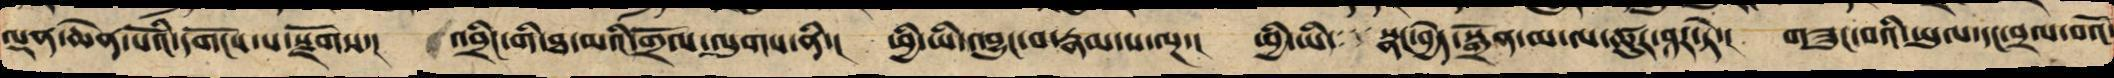ལྡན་ཆེན་པོའི་དགོངས་པ་སྫོགས་། འབྲིང་གི་ཐ་མའི་གྲོལ་ལུགས་ནི་། ཕྱི་ཡི་འབྱུང་བ་རྣམ་པ་ལྔ་། ཕྱི་ཡི་་་་སྣང་བྱེད་སྒྲོན་མ་ལ་ཚུར་ཤར་ཏེ་། གཟུང་བའི་ཡུལ་དང་བྲལ་བའོ་།
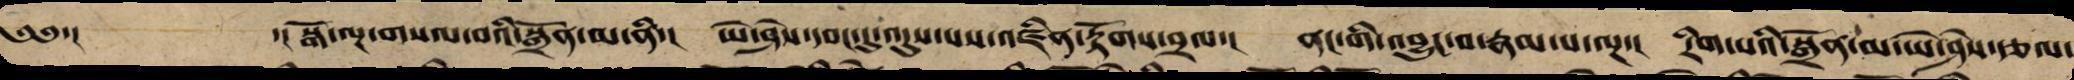༄༅་། ་།སྒོ་ལྔ་གསལ་བའི་སྒྲོན་མ་ནི་། ཡེ་ཤེས་དབང་དུ་འདུས་པས་འཛིན་རྟོགས་བྲལ་། ནང་གི་འབྱུང་བ་རྣམ་པ་ལྔ་། རིག་པའི་སྒྲོན་མ་ཡེ་ཤེས་རྩལ་
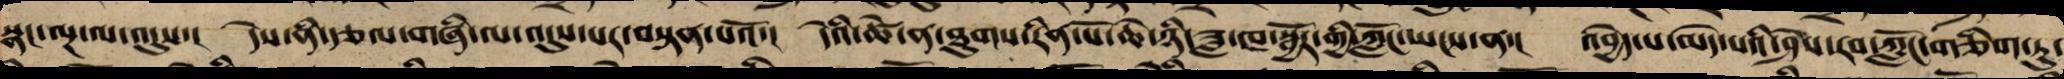སྣང་ལྔ་ལ་འདུས་། དེས་ནི་རྩལ་གཞི་ལ་འདུས་པར་བསྟན་པའོ་། དེའི་ཚེ་ཐུགས་རིན་པོ་ཆེ་ཉི་ཟླ་ཁ་སྦྱོར་གྱི་ཀློང་ཡངས་ན་། འབྱེད་པ་མེད་པའི་ཤེས་རབ་ཀློང་གཅིག་ཏུ་
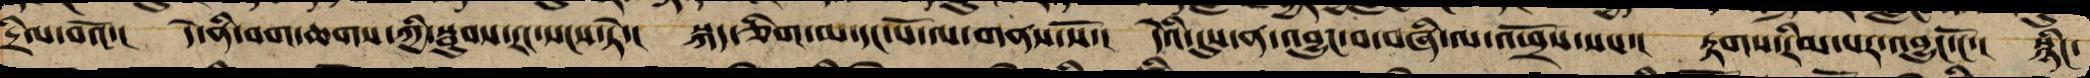དྲིལ་བའོ་། དེ་ནི་བག་ཆགས་ཀྱི་སྦུབས་རང་སངས་ཏེ་། སྐད་ཅིག་མ་དང་པོ་ལ་གནས་སོ་། དེའི་དུས་ན་འབྱུང་བ་བཞི་འཕྲོས་པས་། རྟགས་རིམ་པར་འབྱུང་ངོ་། སྙིང་
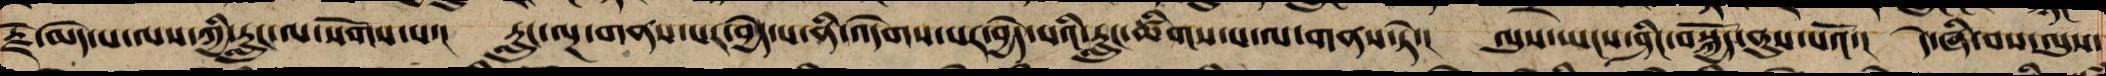རྗེ་མེད་པ་ལས་ཀྱི་རླུང་ལ་སོགས་པ་། རླུང་ལྔ་གནས་པར་བྱེད་པ་ནི་འདེགས་པར་བྱེད་པའི་རླུང་ཚིགས་པ་ལ་གནས་ཏེ་། ལུས་ཡངས་ཤིང་བསྐྱོད་ནུས་པའོ་། དེ་ཞི་བས་ལུས་
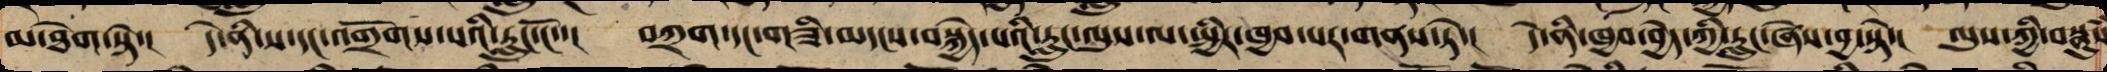མི་ཐེག་སྟེ་། དེ་ནི་ས་དང་འགྲོགས་པའི་རླུང་ངོ་་། བཀྲག་དང་གཟི་མདངས་བསྐྱེད་པའི་རླུང་ལུས་ལ་སྤྱིར་ཁྱབ་པར་གནས་ཏེ་། དེ་ནི་ཁྱབ་བྱེད་ཀྱི་རླུང་ཞེས་བྱ་སྟེ་། ལུས་ཀྱི་བསྣུཾས
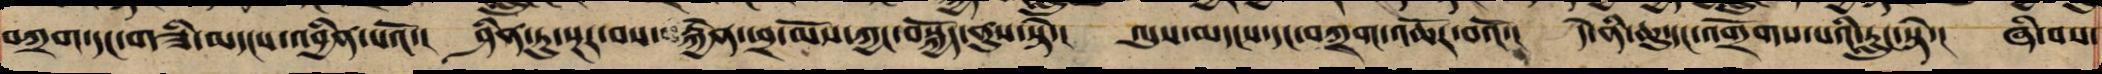བཀྲག་དང་གཟི་མདངས་འབྱིན་པའོ་། ཤིན་ཏུ་སྔར་བས་རྐྱེན་ཕྲ་མོས་ཀྱང་བསྐྱོད་ནུས་སྟེ་། ལུས་མདངས་དང་བཀྲག་འཆོར་བའོ་། དེ་ནི་ཆུ་དང་འགྲོགས་པའི་རླུང་སྟེ་། ཞི་བས་
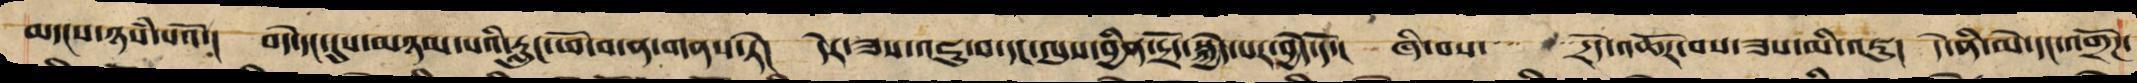མདངས་ཉཾས་པའོ་། བདེ་དང་དུས་མཉམ་པའི་རླུང་ཕོ་བ་ན་གནས་ཏེ་། དེར་ཟས་འཇུ་བ་དང་ལུས་བྱིན་དྲོད་སྐྱེ་བར་བྱེད་དོ་། ཞི་བས་་་་་ ་་དྲོད་འཆོར་བས་ཟས་མི་འཇུ། དེ་ནི་མེ་དང་འགྲོཌ་
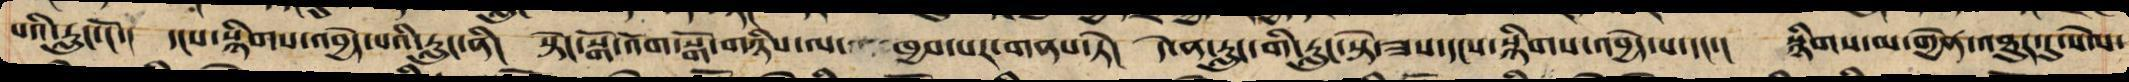པའི་རླུང་ངོ་། དངས་སྙིགས་འབྱེད་པའི་རླུང་ནི། སྟེང་སྒོ་འོག་སྒོ་གཉིས་ལ་་་་་ཁྱབ་པར་གནས་ཏེ། དེ་ནི་རླུང་གི་རླུང་སྟེ་ཟས་དངས་སྙིགས་འབྱེད་པ་དང་། སྙིགས་མ་གྱེན་འཐུར་དུ་སེལ་
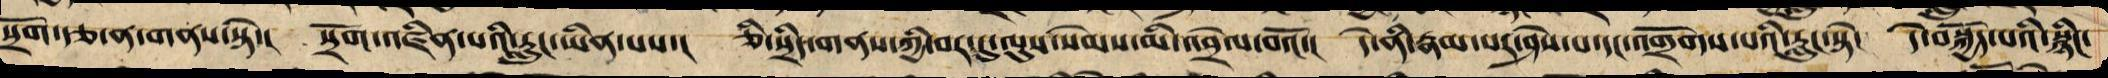སྲོག་རྩ་ན་གནས་སྟེ་། སྲོག་འཛིན་པའི་རླུང་ཡིན་པས་། ཅི་སྲིད་གནས་ཀྱི་བར་དུ་ལུས་སེམས་མི་འབྲེལ་བའོ་། དེ་ནི་རྣམ་པར་ཤེས་པ་དང་འགྲོགས་པའི་རླུང་སྟེ། དེ་བསྐྱོད་པའི་སྙིང་
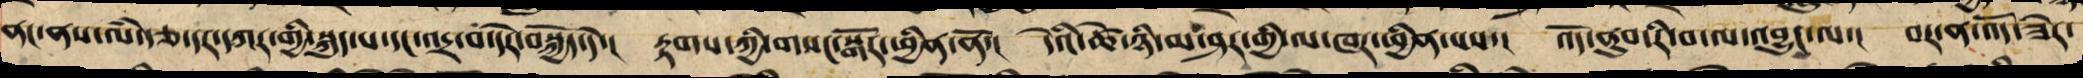ནང་ནས་ལཾ་རྩ་དར་དཀར་གྱི་སྐུད་པ་དང་འདྲ་བ་དེར་བསྐྱོད་དེ་། རྟགས་ཀྱི་གསང་སྒོར་ཕྱིན་ནོ་། དེའི་ཚེ་ཉི་མ་ཤར་གྱི་ལ་ཁར་ཕྱིན་པས་། འོད་ནུབ་རི་བ་ལ་འབྱུང་ལ་། བར་ན་འོད་ཟེར་
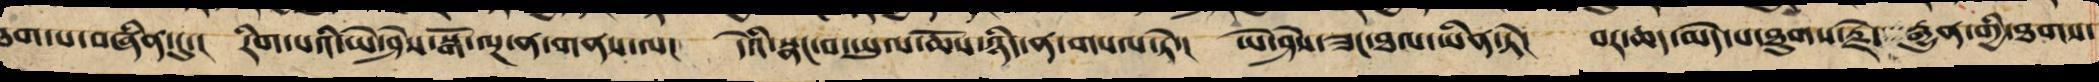ག་པ་བཞིན་དུ་། རིག་པའི་ཡེ་ཤེས་སྒོ་ལྔ་ན་གནས་ལ། དེའི་སྣང་བ་ཡུལ་ཆོས་ཉིད་ན་གསལ་ཏེ་། ཡེ་ཤེས་ཟང་ཐལ་ཡིན་ཏེ། བར་ཆད་མེད་པ་ཐུགས་རྗེ་་་་རྒྱུན་གྱི་ཐགས་
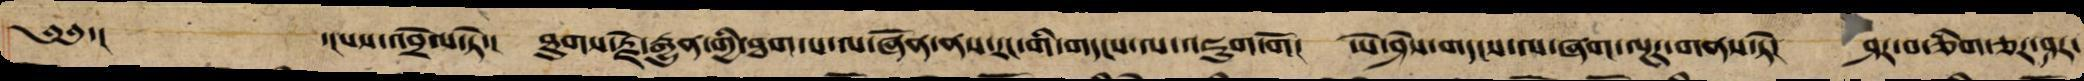༄༅་། ་།པས་འབྲེལ་ཏེ་། ཐུགས་རྗེ་རྒྱུན་གྱི་ཐག་པ་ལ་ཞོན་ནས་རང་གི་གདངས་ལ་འཇུག་གོ། ཡེ་ཤེས་གདངས་ལ་ཞག་ལྔར་གནས་ཏེ། ཤར་བ་ཅིག་ཅར་ཤར་
